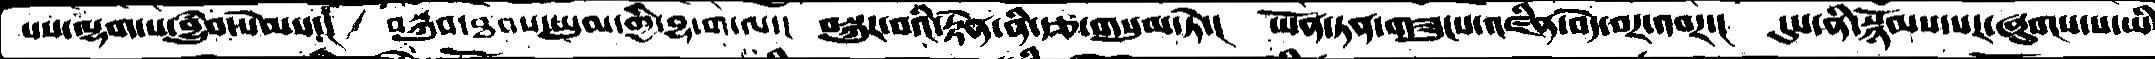པས་ལྷག་པ་བྱུཾབ་སེམས་།  བསྐུས་ཐབས་ཡུམ་གྱི་བྷ་ག་ལ་།  བསྐུར་བའི་རྟེན་ནི་རྩ་གསུམ་ཏེ་།  ཡོན་ཏན་གཟུངས་འཛིན་བདེ་བར་འབར་།  དུས་ནི་སྙོམས་པར་ཞུགས་པ་ཡི
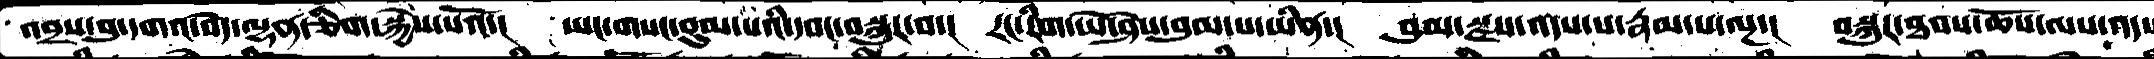འབྲས་བུ་དགའ་བདེ་ལྷན་ཅིག་སྐྱེས་པའོ་།  ཡང་གསང་བུམ་པའི་དབང་བསྐུར་བ་།  རང་རིག་ཡེ་ཤེས་བུམ་པ་ཡིན་།  བུམ་རྫས་འདས་པ་རྣམ་པ་ལྔ་།  བསྐུར་ཐབས་ཆོས་ལས་ནད་
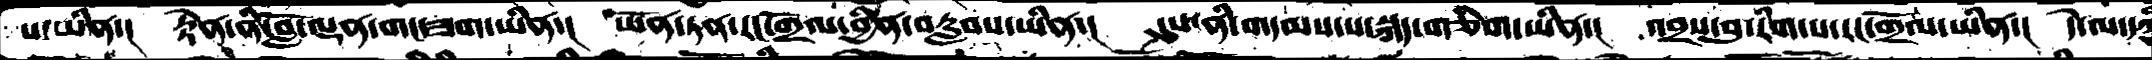པ་ཡིན་།  རྟེན་ནི་བློ་ལྡན་གང་ཟག་ཡིན།  ཡོན་ཏན་རང་གྲོལ་བྱིན་བརླབས་ཡིན་།  དུས་ནི་གདམས་པ་སྐད་གཅིག་ཡིན་།  འབྲས་བུ་རིག་པ་རང་གྲོལ་ཡིན་།  དེ་ལ་དཀྱི
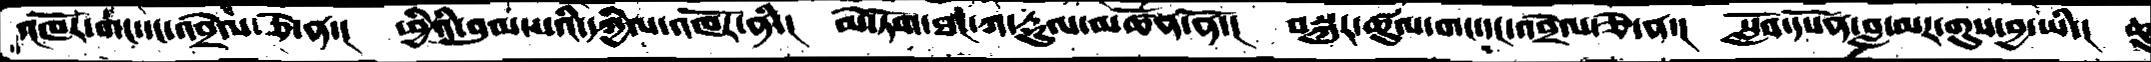འཁོར་གང་དང་འབྲེལ་ཅེ་ན་།  ཕྱིའི་བུམ་པའི་དཀྱིལ་འཁོར་ནི་།  མེ་ཏོག་ཐང་ཀ་རྡུལ་མཚོན་ནོ་།  བསྐུར་ཚུལ་གང་དང་འབྲེལ་ཅེ་ན་།  སློབ་དཔོན་བླ་མར་གུས་བྱ་ཡི་།  ཆུ
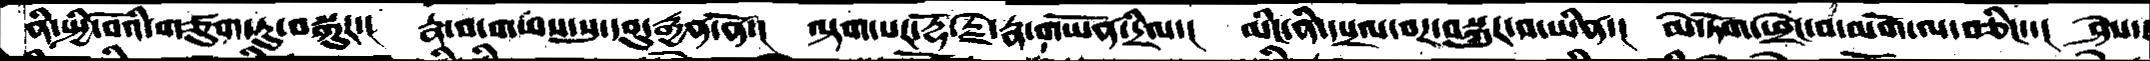ནི་སྤྱི་བོའི་གཙུག་ཏུ་བསྐུར་།  རྣ་བ་གཡས་སུ་དབུ་རྒྱན་ནོ་།  ལྟག་པར་རྡོ་རྗེ་རྣ་གཡོན་དྲིལ་།  མིང་ནི་དཔྲལ་བར་བསྐུར་བ་ཡིན་།  མེ་ཏོག་ཕྲེང་བ་མགོ་ལ་བཅིང་་།  ཤེས་
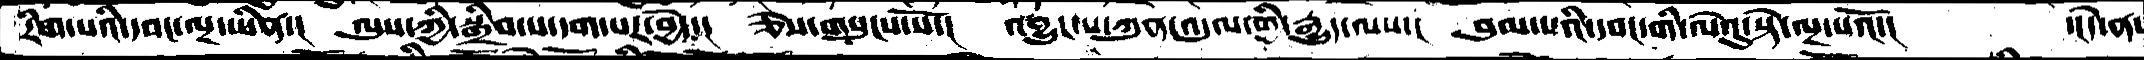རིག་པའི་དབང་ལྔ་ཡིན་།  ལུས་ཀྱི་སྒྲིབ་པ་དག་པར་བྱེད་།  ཅེས་གསུངས་སོ་།   འབྱུང་པ་ཀུན་འདུལ་གྱི་རྒྱུད་ལས་།  བུམ་པའི་དབང་གི་ལེའུ་སྟེ་ལྔ་པའོ་།      ་།དེ་ན་
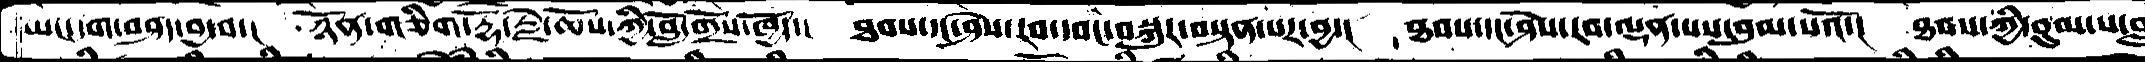ཡང་དག་བཤད་བྱ་བ་།  ཉོན་གཅིག་རྡོ་རྗེ་ཆོས་ཀྱི་བློ་གྲོས་ཁྱོད་།  ཐབས་དང་ཤེས་རབ་དབང་བསྐུར་བསྟན་པར་བྱ་།  ཐབས་དང་ཤེས་རབ་ལྡན་པས་བུམ་པའོ་།  ཐབས་ཀྱི་བུམ་པ་བླ
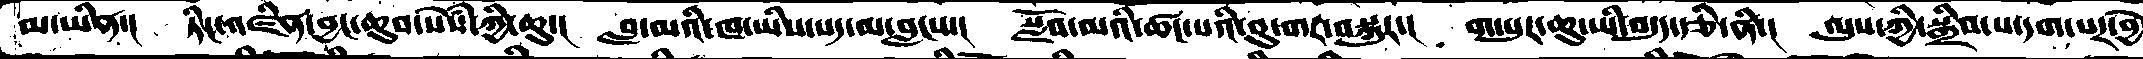མ་ཡིན་།  ཏིང་འཛིན་བྱང་ཆུབ་སེསཾ་ཀྱི་ཆུ་།  བླ་མའི་ཁ་ཡིས་པད་མ་བླངས་།  སློབ་མའི་ཚང་པའིི་བུ་གར་བསྐུར་།  ག་པུར་ཆུ་ཡི་བདུད་རྩི་ནི་།  ལུས་ཀྱི་སྒྲིབ་པ་དག་པར་བྱེ
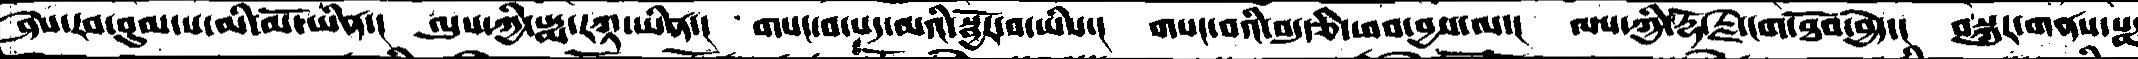ཤེས་རབ་བུམ་པ་མི་མོ་ཡིན་།  ལུས་ཀྱི་པདྨ་རཀྟ་ཡིན་།  གསང་བ་པད་མའི་སྦྱོར་བ་ཡིས་།  གསང་བའི་བདུད་རྩི་ཕབ་བྱས་ལ་།  ལས་ཀྱི་རྡོ་རྗེ་དག་ཐོབ་བྱེད་།  བསྐུར་གནས་པདྨ
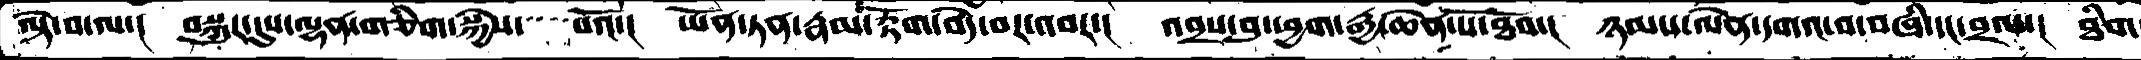ལྟེ་བ་ལ་།  བསྐུར་དུས་ལྷན་གཅིག་སྐྱེས་    པའོ་།  ཡོན་ཏན་རྣམ་རྟོག་བདེ་བར་འབར་།  འབྲས་བུ་ཕྱག་རྒྱ་ཆེན་པོ་་ཐོབ་།  ཉམས་ལེན་དགའ་བ་བཞི་དང་བྲལ་།  ཐིག
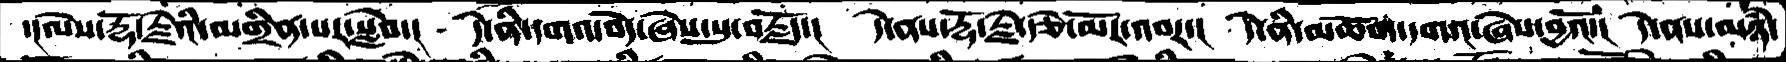་།ལེས་རྡོ་རྗེའི་མགྲིན་པར་སླེབ་།  དེ་ནི་དགའ་བདེ་ཞེས་སུ་བརྗོད་།   དེ་ནས་རྡོ་རྗེ་རྩེ་མོར་འབར་།  དེ་ནི་མཆོག་དགའ་ཞེས་བྱའོ་།  དེ་ནས་མཉཾ་
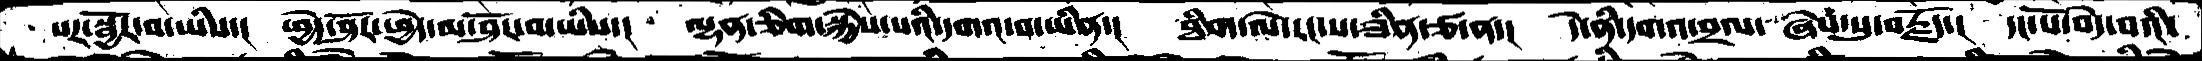པར་སྦྱོར་བ་ཡིས་།  ཕྱེད་ཤོར་ཕྱེད་མ་ཤོར་བ་ཡིས་།   ལྷ་ཅིག་སྐྱེས་པའི་དགའ་བ་ཡིན་།  ཐིག་ལེ་རང་པ་ཟིན་ཙ་ན་།  དེ་ནི་དགའ་བྲལ་  ཞེས་སུ་བརྗོད་།  དང་པོ་བདེ་པའི་
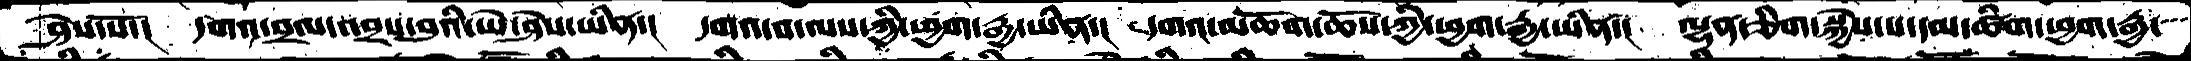ཤེས་སོ་།  དགའ་བྲལ་འབྲས་བུའི་ཡེ་ཤེས་ཡིན་།  དགའ་བ་ལས་ཀྱི་ཕྱག་རྒྱ་ཡིན་།  དགའ་མཆོག་ཆོས་ཀྱི་ཕྱག་རྒྱ་ཡིན་།  ལྷན་ཅིག་སྐྱེས་པ་དམ་ཚིག་ཕྱག་རྒྱ་
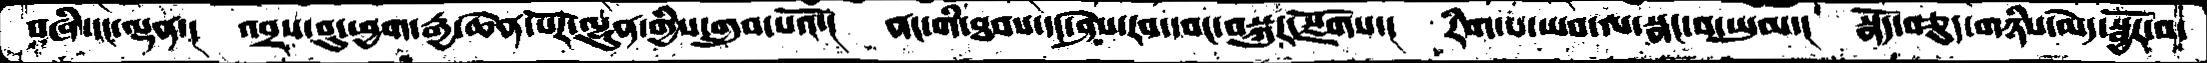བཞི་དང་ལྡན་།  འབྲས་བུ་ཕྱག་རྒྱ་ཆེན་པོར་ལྷུན་གྱིས་གྲུབ་པའོ་།  ནང་གི་ཐབས་དང་ཤེས་རབ་དབང་བསྐུར་སྫོགས་།  རིག་པ་ཡབ་ལ་སྣང་བ་ཡུམ་།  སྣོད་བཅུད་གཉིས་མེད་སྦྱོར་བ་
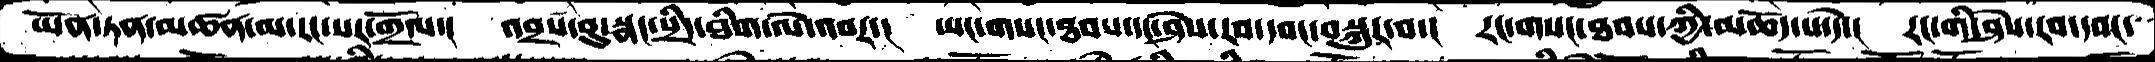ཡོན་ཏན་མཚན་མ་རང་སར་གྲོལ་།  འབྲས་བུ་སྣང་སྲིད་ཐིག་ལེ་འབར་།  ཡང་གསང་ཐབས་དང་ཤེས་རབ་དབང་བསྐུར་བ་།  རང་གསང་ཐབས་ཀྱི་མཆོད་པ་དེ་།  རང་གི་ཤེས་རབ་དབང་
